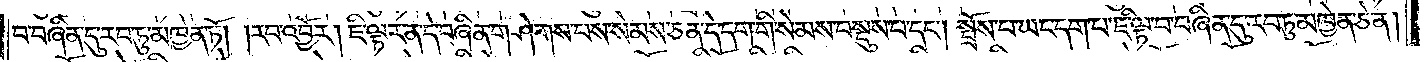བ་བཞིན་དུ་རབ་ཏུ་མཁྱེན་ཏོ། །རབ་འབྱོར། ཇི་ལྟར་ན་དེ་བཞིན་གཤེགས་པས་སེམས་ཅན་དེ་དག་གི་སེམས་བསྡུས་པ་དང༌། སྤྲོས་པ་ཡང་དག་པ་ཇི་ལྟ་བ་བཞིན་དུ་རབ་ཏུ་མཁྱེན་ཅེ་ན།
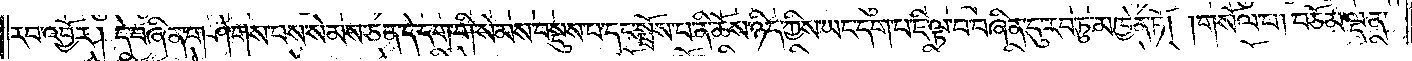རབ་འབྱོར། དེ་བཞིན་གཤེགས་པས་སེམས་ཅན་དེ་དག་གི་སེམས་བསྡུས་པ་དང་སྤྲོས་པ་ནི་ཆོས་ཉིད་ཀྱིས་ཡང་དག་པ་ཇི་ལྟ་བ་བཞིན་དུ་རབ་ཏུ་མཁྱེན་ཏོ། །གསོལ་པ། བཅོམ་ལྡན་
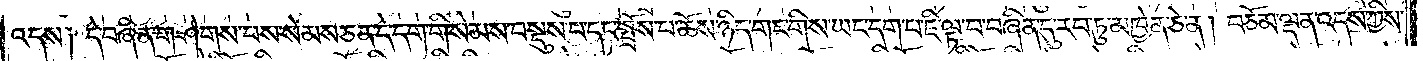འདས༑ དེ་བཞིན་གཤེགས་པས་སེམས་ཅན་དེ་དག་གི་སེམས་བསྡུས་པ་དང་སྤྲོས་པ་ཆོས་ཉིད་གང་གིས་ཡང་དག་པ་ཇི་ལྟ་བ་བཞིན་དུ་རབ་ཏུ་མཁྱེན་ཅེ་ན། བཅོམ་ལྡན་འདས་ཀྱིས་
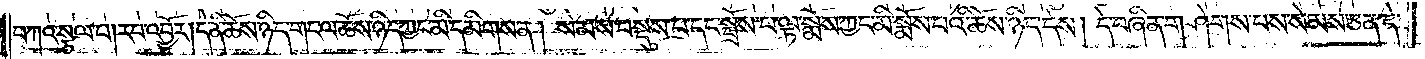བཀའ་སྩལ་པ། རབ་འབྱོར། དེ་ནི་ཆོས་ཉིད་གང་ལ་ཆོས་ཉིད་ཀྱང་མི་དམིགས་ན། སེམས་བསྡུས་པ་དང་སྤྲོས་པ་ལྟ་སྨོས་ཀྱང་མི་སྨོས་པའི་ཆོས་ཉིད་དེས། དེ་བཞིན་གཤེགས་པས་སེམས་ཅན་དེ་
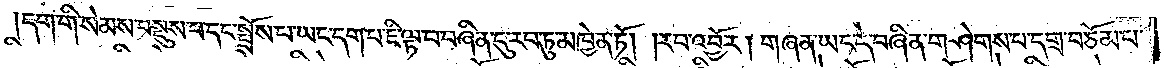དག་གི་སེམས་བསྡུས་པ་དང་སྤྲོས་པ་ཡང་དག་པ་ཇི་ལྟ་བ་བཞིན་དུ་རབ་ཏུ་མཁྱེན་ཏོ། །རབ་འབྱོར། གཞན་ཡང་དེ་བཞིན་གཤེགས་པ་དགྲ་བཅོམ་པ་
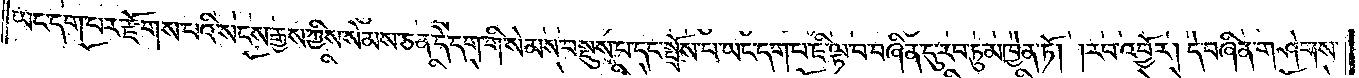ཡང་དག་པར་རྫོགས་པའི་སངས་རྒྱས་ཀྱིས་སེམས་ཅན་དེ་དག་གི་སེམས་བསྡུས་པ་དང་སྤྲོས་པ་ཡང་དག་པ་ཇི་ལྟ་བ་བཞིན་དུ་རབ་ཏུ་མཁྱེན་ཏོ། །རབ་འབྱོར། དེ་བཞིན་གཤེགས་
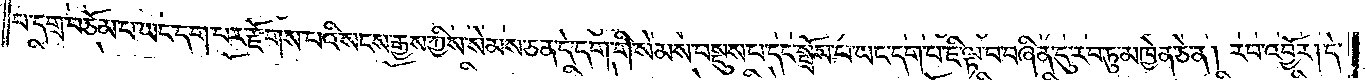པ་དགྲ་བཅོམ་པ་ཡང་དག་པར་རྫོགས་པའི་སངས་རྒྱས་ཀྱིས་སེམས་ཅན་དེ་དག་གི་སེམས་བསྡུས་པ་དང་སྤྲོས་པ་ཡང་དག་པ་ཇི་ལྟ་བ་བཞིན་དུ་རབ་ཏུ་མཁྱེན་ཅེ་ན། རབ་འབྱོར། དེ་
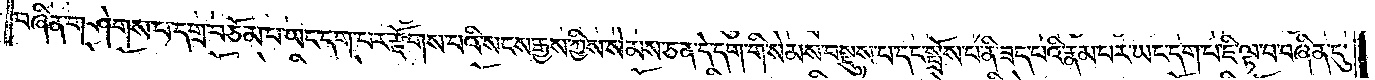བཞིན་གཤེགས་པ་དགྲ་བཅོམ་པ་ཡང་དག་པར་རྫོགས་པའི་སངས་རྒྱས་ཀྱིས་སེམས་ཅན་དེ་དག་གི་སེམས་བསྡུས་པ་དང་སྤྲོས་པ་ནི་ཟད་པའི་རྣམ་པར་ཡང་དག་པ་ཇི་ལྟ་བ་བཞིན་དུ་
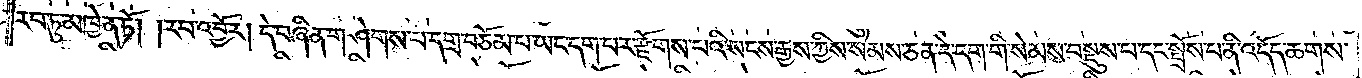རབ་ཏུ་མཁྱེན་ཏོ། །རབ་འབྱོར། དེ་བཞིན་གཤེགས་པ་དགྲ་བཅོམ་པ་ཡང་དག་པར་རྫོགས་པའི་སངས་རྒྱས་ཀྱིས་སེམས་ཅན་དེ་དག་གི་སེམས་བསྡུས་པ་དང་སྤྲོས་པ་ནི་འདོད་ཆགས་
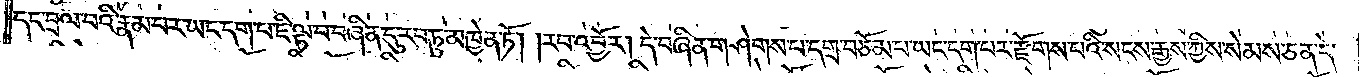དང་བྲལ་བའི་རྣམ་པར་ཡང་དག་པ་ཇི་ལྟ་བ་བཞིན་དུ་རབ་ཏུ་མཁྱེན་ཏོ། །རབ་འབྱོར། དེ་བཞིན་གཤེགས་པ་དགྲ་བཅོམ་པ་ཡང་དག་པར་རྫོགས་པའི་སངས་རྒྱས་ཀྱིས་སེམས་ཅན་དེ་
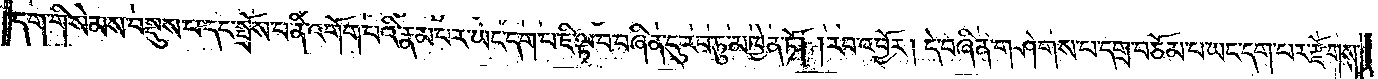དག་གི་སེམས་བསྡུས་པ་དང་སྤྲོས་པ་ནི་འགོག་པའི་རྣམ་པར་ཡང་དག་པ་ཇི་ལྟ་བ་བཞིན་དུ་རབ་ཏུ་མཁྱེན་ཏོ། །རབ་འབྱོར། དེ་བཞིན་གཤེགས་པ་དགྲ་བཅོམ་པ་ཡང་དག་པར་རྫོགས་
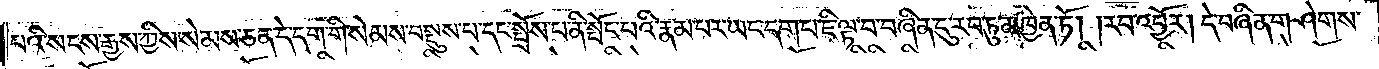པའི་སངས་རྒྱས་ཀྱིས་སེམས་ཅན་དེ་དག་གི་སེམས་བསྡུས་པ་དང་སྤྲོས་པ་ནི་སྤོང་བའི་རྣམ་པར་ཡང་དག་པ་ཇི་ལྟ་བ་བཞིན་དུ་རབ་ཏུ་མཁྱེན་ཏོ། །རབ་འབྱོར། དེ་བཞིན་གཤེགས་
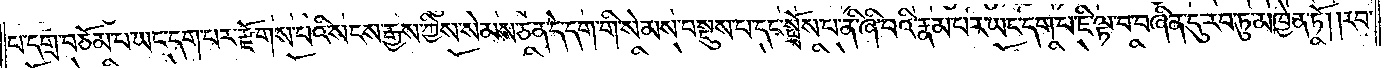པ་དགྲ་བཅོམ་པ་ཡང་དག་པར་རྫོགས་པའི་སངས་རྒྱས་ཀྱིས་སེམས་ཅན་དེ་དག་གི་སེམས་བསྡུས་པ་དང་སྤྲོས་པ་ནི་ཞི་བའི་རྣམ་པར་ཡང་དག་པ་ཇི་ལྟ་བ་བཞིན་དུ་རབ་ཏུ་མཁྱེན་ཏོ། །རབ་
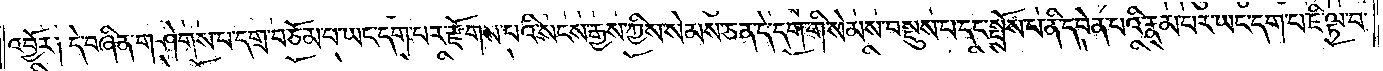འབྱོར༑ དེ་བཞིན་གཤེགས་པ་དགྲ་བཅོམ་པ་ཡང་དག་པར་རྫོགས་པའི་སངས་རྒྱས་ཀྱིས་སེམས་ཅན་དེ་དག་གི་སེམས་བསྡུས་པ་དང་སྤྲོས་པ་ནི་དབེན་པའི་རྣམ་པར་ཡང་དག་པ་ཇི་ལྟ་བ་
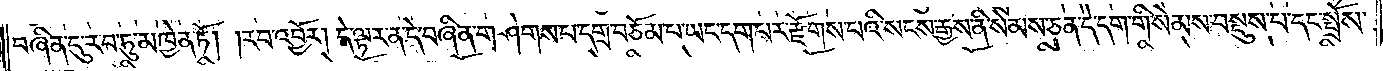བཞིན་དུ་རབ་ཏུ་མཁྱེན་ཏོ། །རབ་འབྱོར། དེ་ལྟར་ན་དེ་བཞིན་གཤེགས་པ་དགྲ་བཅོམ་པ་ཡང་དག་པར་རྫོགས་པའི་སངས་རྒྱས་ནི་སེམས་ཅན་དེ་དག་གི་སེམས་བསྡུས་པ་དང་སྤྲོས་
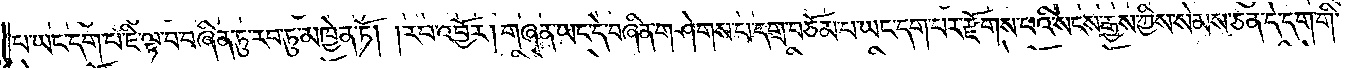པ་ཡང་དག་པ་ཇི་ལྟ་བ་བཞིན་དུ་རབ་ཏུ་མཁྱེན་ཏོ། །རབ་འབྱོར། གཞན་ཡང་དེ་བཞིན་གཤེགས་པ་དགྲ་བཅོམ་པ་ཡང་དག་པར་རྫོགས་པའི་སངས་རྒྱས་ཀྱིས་སེམས་ཅན་དེ་དག་གི་
